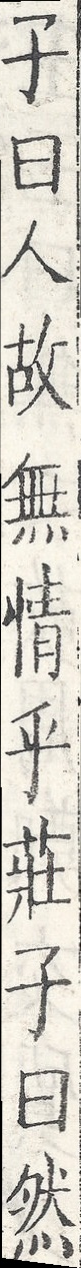子曰人故無情乎莊子曰然
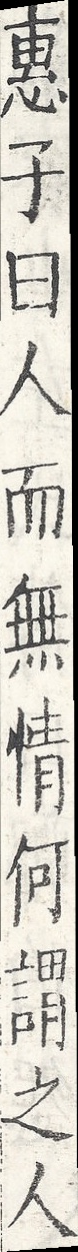惠子曰人而無情何謂之人
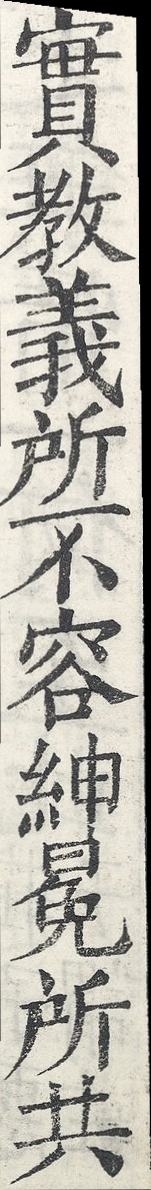實教義所不容紳冕所共
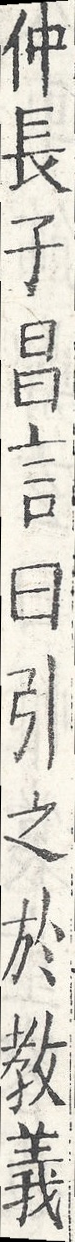仲長子昌言曰引之於教義
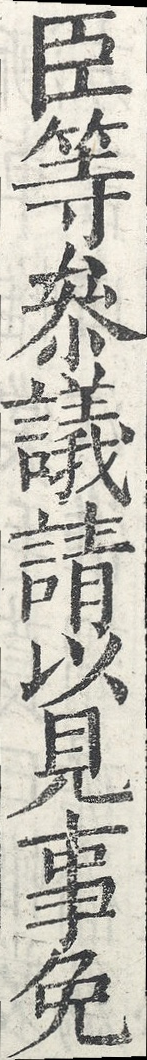臣等參議請以見事免
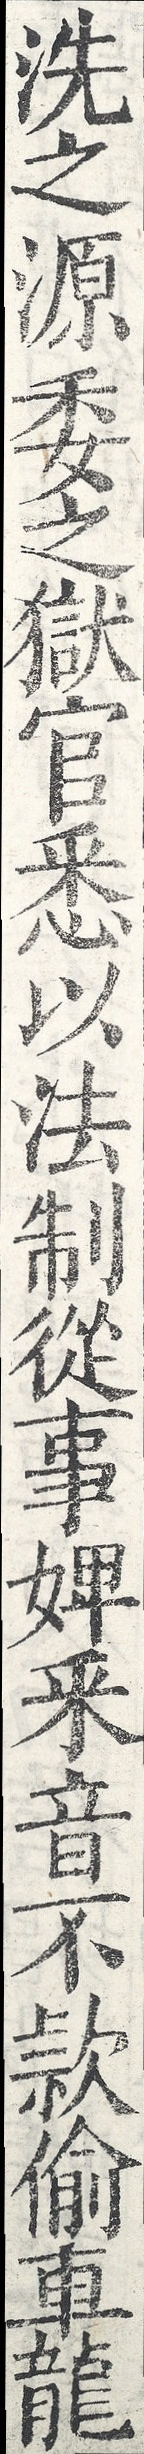洗之源委之獄官悉以法制從事婢采音不款偷車龍
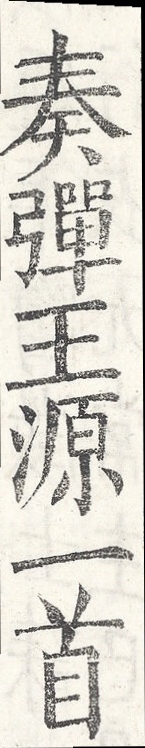奏彈王源一首
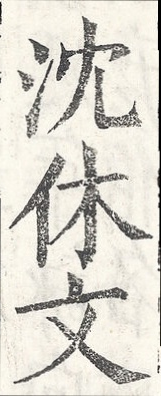沈休文
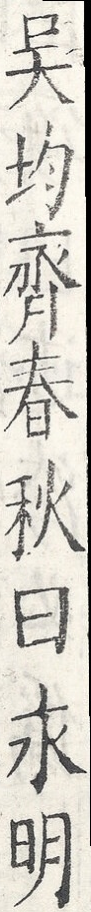吳均齊春秋曰永明
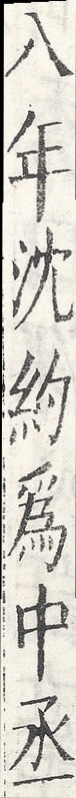八年沈約為中丞
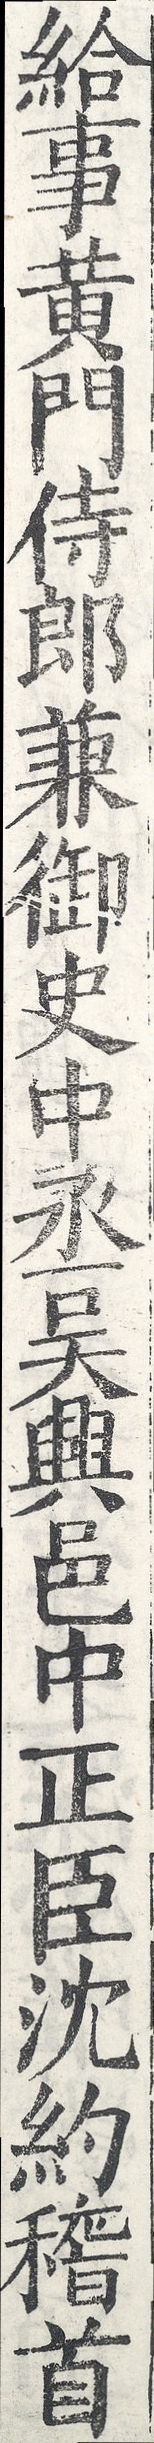給事黃門侍郎兼御史中丞吳興邑中正臣沈約稽首
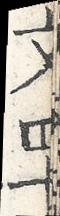文四十
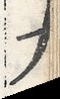六
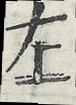左
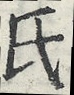氏
